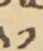༢༡
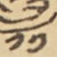༡༡
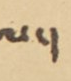ལ་།
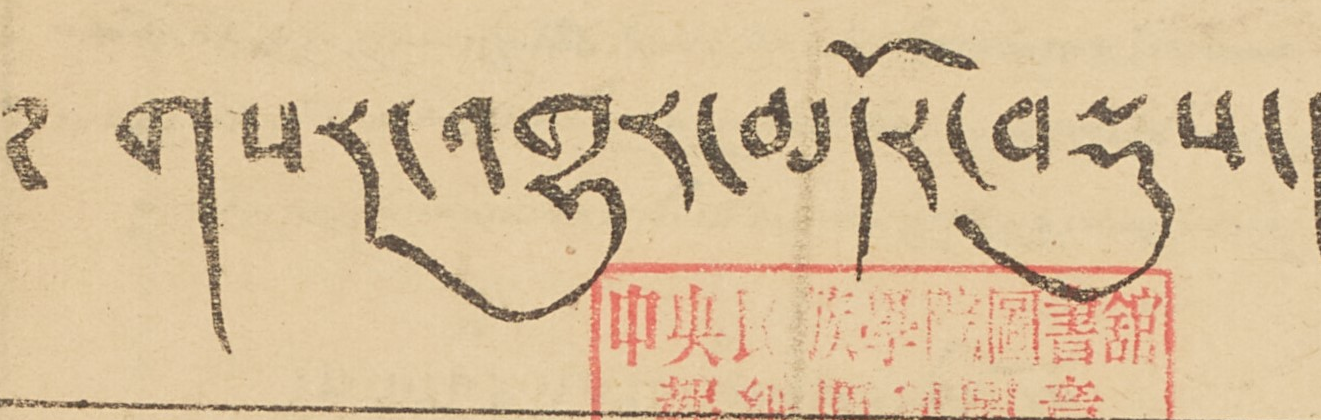གསར་འགྱུར་མདོར་བསྡུས་།
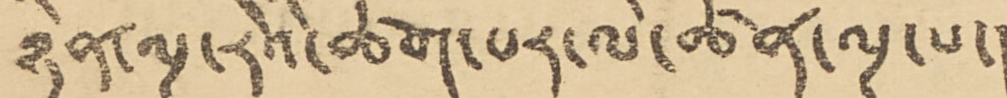ཉིན་ལྔ་རེའི་ཚག་པར་ལེ་ཚན་ལྔ་པ་།
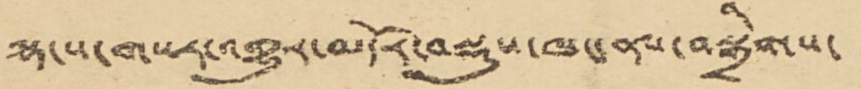ལྷ་ས་གསར་འགྱུར་མདོར་བསྡུས་ཁང་ནས་བསྒྲིགས་
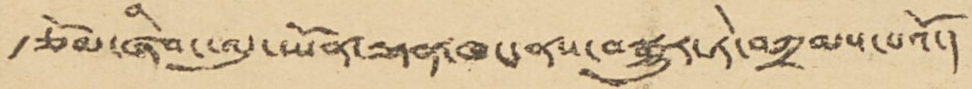རྩོམ་ཞིབ་ཨུ་ཡོན་ལྷན་ཁང་ནས་བསྒྱུར་ཏེ་བཀྲམས་པའོ་།
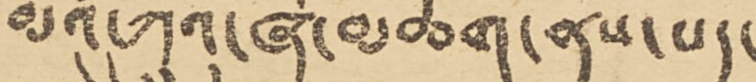མའོ་ཀྲུའུ་ཞི་མཆོག་ནས་པད་
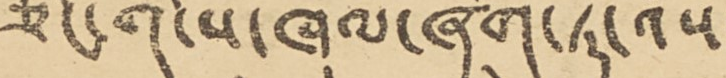ཅིང་གི་ས་ཁུལ་ཞིག་ཏུ་འོས་
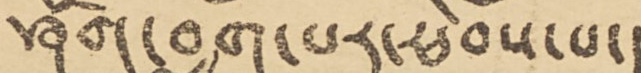ཤོག་བླུག་པར་ཕེབས་པ་།
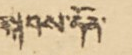སྐབས་དོན་
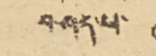བཤད་པ་
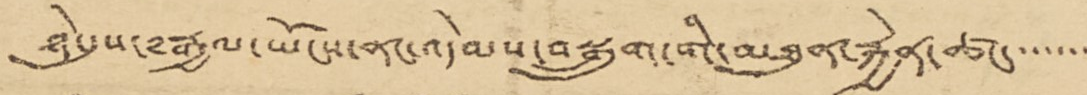ཉེ་དུས་༸རྒྱལ་ཡོངས་ནང་འདེམས་བསྒྲུག་གི་མཐུན་རྐྱེན་ཚང་་་་་་
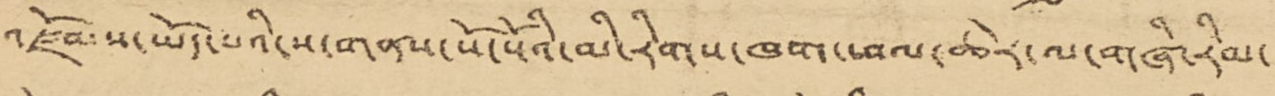འཛོམས་ཡོད་པའི་ས་གནས་སོ་སོའི་མི་རིགས་ཁག་ཕལལ་ཆེར་ལ་གཞི་རིམ་
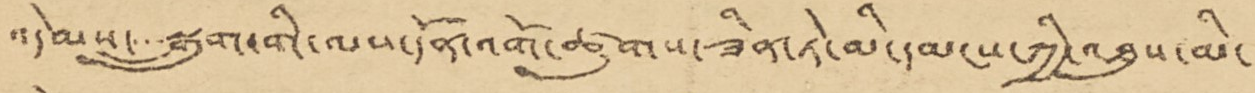འདེམས་་་་སྒྲུག་གི་ལས་དོན་འགོ་ཚུགས་ཟིན་ཏེ་མི་དམངས་ཀྱི་འཐུས་མི་
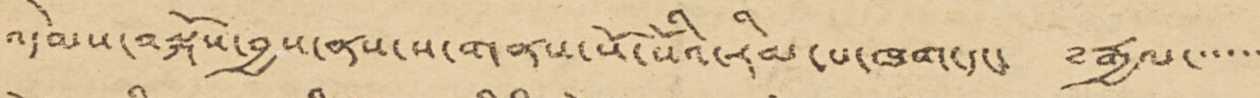འདེམས་བསྐོས་བྱས་ནས་ས་གནས་སོ་སོའི་རིམ་པ་ཁག་དང་ ༸རྒྱལ་་་་་་
